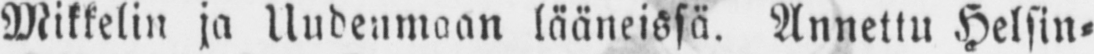Mikkelin ja Uudenmaan lääneissä. Annettu Helsin-
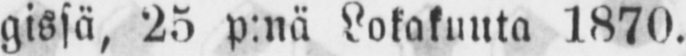gissä, 25 p:nä Lokakunta 1870.
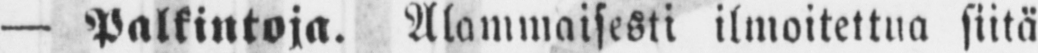— Palkintoja. Alammaisesti ilmoitettua siitä
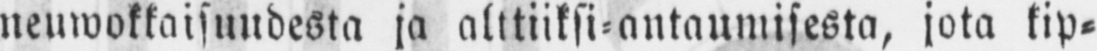neuwokkaisuudesta ja alttiiksi antaumisesta, jota kip-
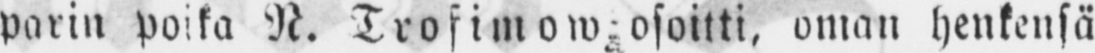parin poika N. Trofimow osoitti, oman henkensä
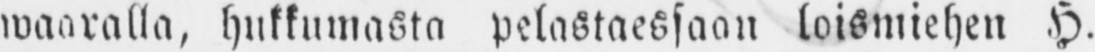waaralla, hukkumasta pelastaessaan loismiehen H.
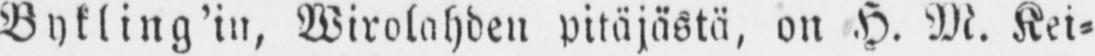Bykling’in, Wirolahden pitäjästä, on H. M. Kei-
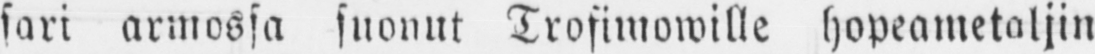sari armossa suonut Trofimowille hopeametaljin
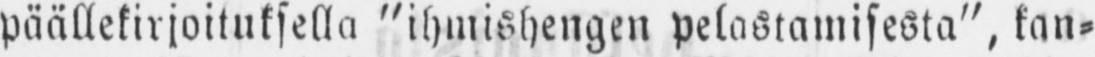päällekirjoituksella "ihmishengen pelastamisesta", kan-
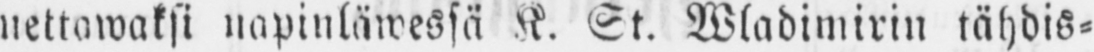nettawaksi napinläwessä K. St. Wladimirin tähdis-
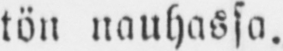tön nauhassa.
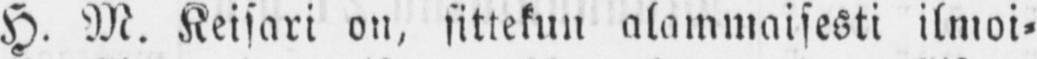H. M. Keisari on, sittekun alammaisesti ilmoi-
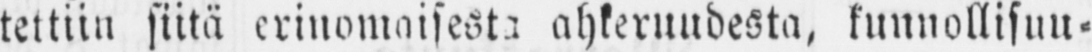tettiin siitä erinomaisesta ahkeruudesta, kunnollisuu-
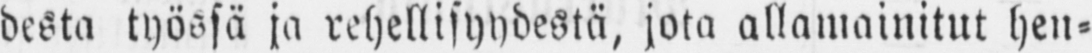desta työssä ja rehellisyydestä, jota allamainitut hen-
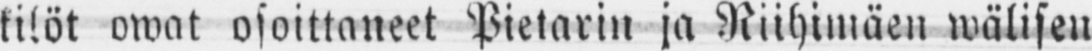kilöt owat osoittaneet Pietarin ja Riihimäen wälisen
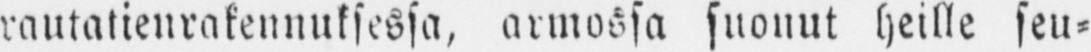rautatieurakeunuksessa, armossa suonut heille seu-
